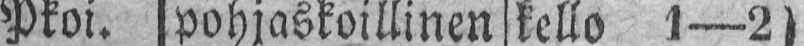Pkoi. pohjaskoillinen kello 1—2
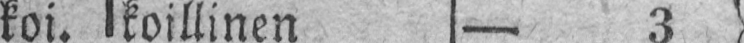koi. koillinen — 3
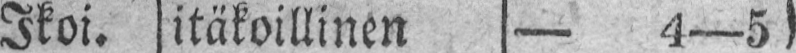Ikoi. itäkoillinen — 4—5
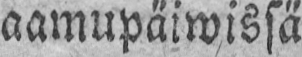aamupäiwissä
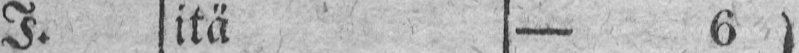I. itä — 6
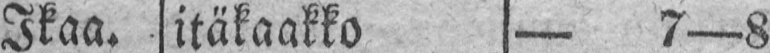Ikaa. itäkaakko — 7—8
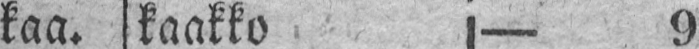kaa. kaakko — 9
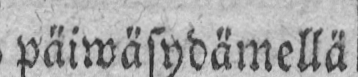päiwäsydämellä
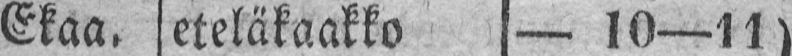Ekaa. eteläkaakko — 10—11
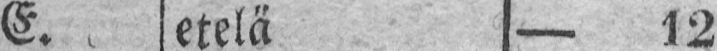E. etelä — 12
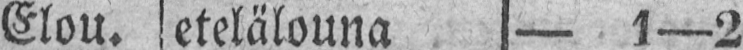Elou. etelälouna — 1—2
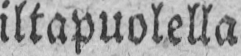iltapuolella
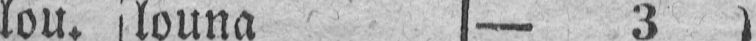lou. louna — 3
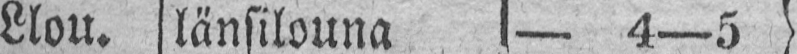Llou. länsilouna — 4—5
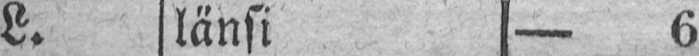L. länsi — 6
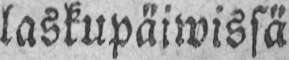laskupäiwissä
